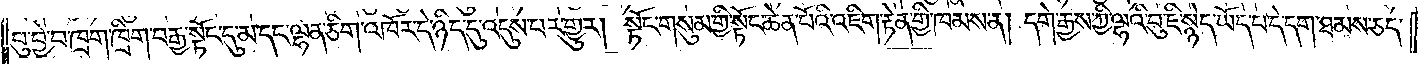བུ་བྱེ་བ་ཁྲག་ཁྲིག་བརྒྱ་སྟོང་དུ་མ་དང་ལྷན་ཅིག་འཁོར་དེ་ཉིད་དུ་འདུས་པར་གྱུར། སྟོང་གསུམ་གྱི་སྟོང་ཆེན་པོའི་འཇིག་རྟེན་གྱི་ཁམས་ན། དགེ་རྒྱས་ཀྱི་ལྷའི་བུ་ཇི་སྙེད་ཡོད་པ་དེ་དག་ཐམས་ཅད་
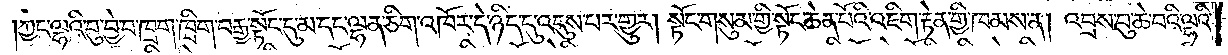ཀྱང་ལྷའི་བུ་བྱེ་བ་ཁྲག་ཁྲིག་བརྒྱ་སྟོང་དུ་མ་དང་ལྷན་ཅིག་འཁོར་དེ་ཉིད་དུ་འདུས་པར་གྱུར། སྟོང་གསུམ་གྱི་སྟོང་ཆེན་པོའི་འཇིག་རྟེན་གྱི་ཁམས་ན། འབྲས་བུ་ཆེ་བའི་ལྷའི་
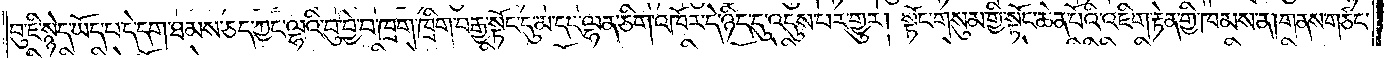བུ་ཇི་སྙེད་ཡོད་པ་དེ་དག་ཐམས་ཅད་ཀྱང་ལྷའི་བུ་བྱེ་བ་ཁྲག་ཁྲིག་བརྒྱ་སྟོང་དུ་མ་དང་ལྷན་ཅིག་འཁོར་དེ་ཉིད་དུ་འདུས་པར་གྱུར། སྟོང་གསུམ་གྱི་སྟོང་ཆེན་པོའི་འཇིག་རྟེན་གྱི་ཁམས་ན། གནས་གཙང་
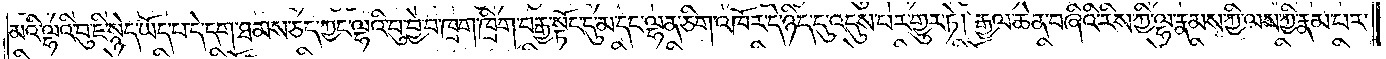མའི་ལྷའི་བུ་ཇི་སྙེད་ཡོད་པ་དེ་དག་ཐམས་ཅད་ཀྱང་ལྷའི་བུ་བྱེ་བ་ཁྲག་ཁྲིག་བརྒྱ་སྟོང་དུ་མ་དང་ལྷན་ཅིག་འཁོར་དེ་ཉིད་དུ་འདུས་པར་གྱུར་ཏེ། རྒྱལ་ཆེན་བཞིའི་རིས་ཀྱི་ལྷ་རྣམས་ཀྱི་ལས་ཀྱི་རྣམ་པར་
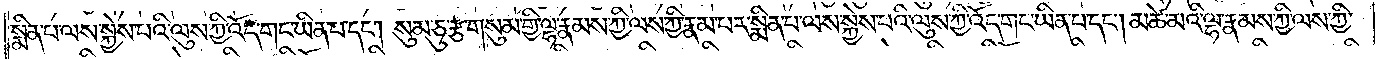སྨིན་པ་ལས་སྐྱེས་པའི་ལུས་ཀྱི་འོད་གང་ཡིན་པ་དང༌། སུམ་ཅུ་རྩ་གསུམ་གྱི་ལྷ་རྣམས་ཀྱི་ལས་ཀྱི་རྣམ་པར་སྨིན་པ་ལས་སྐྱེས་པའི་ལུས་ཀྱི་འོད་གང་ཡིན་པ་དང༌། མཚེ་མའི་ལྷ་རྣམས་ཀྱི་ལས་ཀྱི་
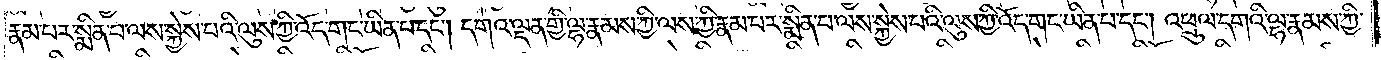རྣམ་པར་སྨིན་པ་ལས་སྐྱེས་པའི་ལུས་ཀྱི་འོད་གང་ཡིན་པ་དང༌། དགའ་ལྡན་གྱི་ལྷ་རྣམས་ཀྱི་ལས་ཀྱི་རྣམ་པར་སྨིན་པ་ལས་སྐྱེས་པའི་ལུས་ཀྱི་འོད་གང་ཡིན་པ་དང༌། འཕྲུལ་དགའི་ལྷ་རྣམས་ཀྱི་
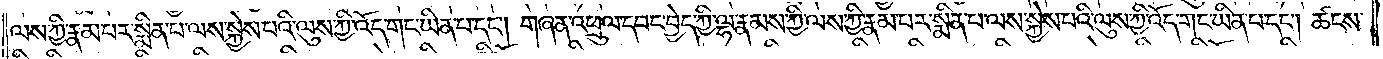ལས་ཀྱི་རྣམ་པར་སྨིན་པ་ལས་སྐྱེས་པའི་ལུས་ཀྱི་འོད་གང་ཡིན་པ་དང༌། གཞན་འཕྲུལ་དབང་བྱེད་ཀྱི་ལྷ་རྣམས་ཀྱི་ལས་ཀྱི་རྣམ་པར་སྨིན་པ་ལས་སྐྱེས་པའི་ལུས་ཀྱི་འོད་གང་ཡིན་པ་དང༌། ཚངས་
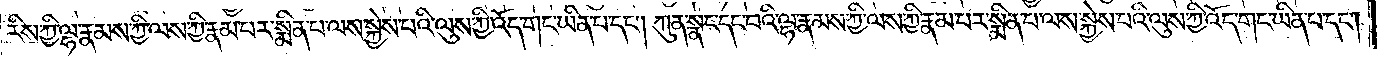རིས་ཀྱི་ལྷ་རྣམས་ཀྱི་ལས་ཀྱི་རྣམ་པར་སྨིན་པ་ལས་སྐྱེས་པའི་ལུས་ཀྱི་འོད་གང་ཡིན་པ་དང༌། ཀུན་སྣང་དང་བའི་ལྷ་རྣམས་ཀྱི་ལས་ཀྱི་རྣམ་པར་སྨིན་པ་ལས་སྐྱེས་པའི་ལུས་ཀྱི་འོད་གང་ཡིན་པ་དང༌།
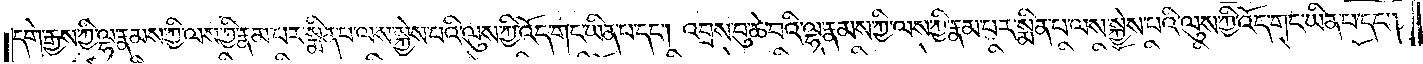དགེ་རྒྱས་ཀྱི་ལྷ་རྣམས་ཀྱི་ལས་ཀྱི་རྣམ་པར་སྨིན་པ་ལས་སྐྱེས་པའི་ལུས་ཀྱི་འོད་གང་ཡིན་པ་དང༌། འབྲས་བུ་ཆེ་བའི་ལྷ་རྣམས་ཀྱི་ལས་ཀྱི་རྣམ་པར་སྨིན་པ་ལས་སྐྱེས་པའི་ལུས་ཀྱི་འོད་གང་ཡིན་པ་དང༌།
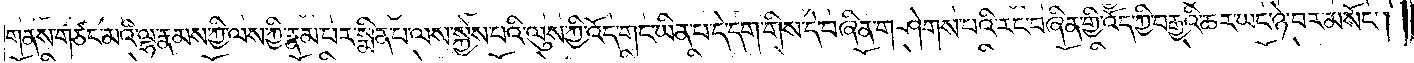གནས་གཙང་མའི་ལྷ་རྣམས་ཀྱི་ལས་ཀྱི་རྣམ་པར་སྨིན་པ་ལས་སྐྱེས་པའི་ལུས་ཀྱི་འོད་གང་ཡིན་པ་དེ་དག་གིས་དེ་བཞིན་གཤེགས་པའི་རང་བཞིན་གྱི་འོད་ཀྱི་བརྒྱའི་ཆར་ཡང་ཉེ་བར་མ་སོང༌།
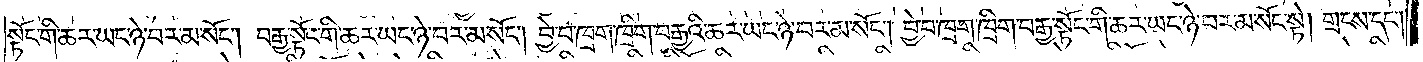སྟོང་གི་ཆར་ཡང་ཉེ་བར་མ་སོང༌། བརྒྱ་སྟོང་གི་ཆར་ཡང་ཉེ་བར་མ་སོང༌། བྱེ་བ་ཁྲག་ཁྲིག་བརྒྱའི་ཆར་ཡང་ཉེ་བར་མ་སོང༌། བྱེ་བ་ཁྲག་ཁྲིག་བརྒྱ་སྟོང་གི་ཆར་ཡང་ཉེ་བར་མ་སོང་སྟེ། གྲངས་དང༌།
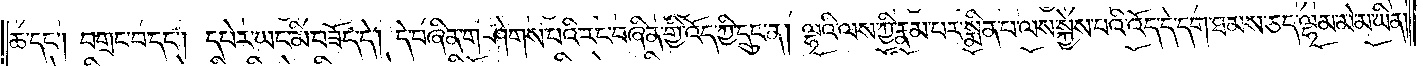ཆ་དང༌། བགྲང་བ་དང༌། དཔེར་ཡང་མི་བཟོད་དེ། དེ་བཞིན་གཤེགས་པའི་རང་བཞིན་གྱི་འོད་ཀྱི་དྲུང་ན། ལྷའི་ལས་ཀྱི་རྣམ་པར་སྨིན་པ་ལས་སྐྱེས་པའི་འོད་དེ་དག་ཐམས་ཅད་ལྷམ་མེ་མ་ཡིན།
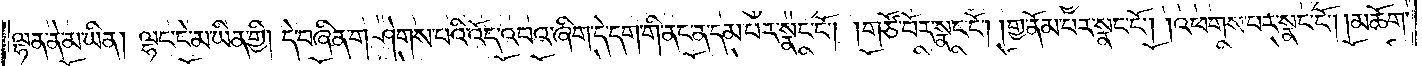ལྷན་ནེ་མ་ཡིན། ལྷང་ངེ་མ་ཡིན་གྱི། དེ་བཞིན་གཤེགས་པའི་འོད་འབའ་ཞིག་དེ་དག་གི་ནང་ན་དམ་པར་སྣང་ངོ༌། །གཙོ་བོར་སྣང་ངོ༌། །གྱ་ནོམ་པར་སྣང་ངོ༌། །འཕགས་པར་སྣང་ངོ༌། །མཆོག་
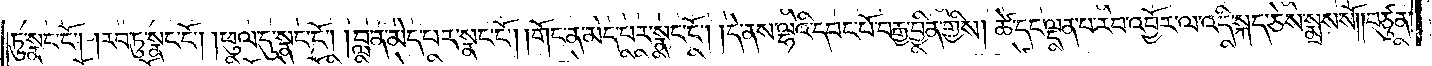ཏུ་སྣང་ངོ༌། །རབ་ཏུ་སྣང་ངོ༌། །ཕུལ་དུ་སྣང་ངོ༌། །བླ་ན་མེད་པར་སྣང་ངོ༌། །གོང་ན་མེད་པར་སྣང་ངོ༌། །དེ་ནས་ལྷའི་དབང་པོ་བརྒྱ་བྱིན་གྱིས། ཚེ་དང་ལྡན་པ་རབ་འབྱོར་ལ་འདི་སྐད་ཅེས་སྨྲས་སོ། །བཙུན་
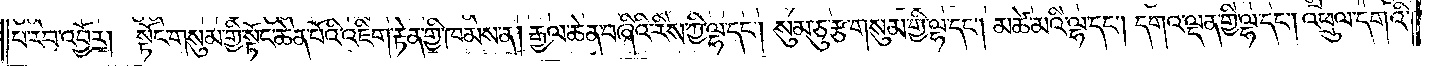པ་རབ་འབྱོར། སྟོང་གསུམ་གྱི་སྟོང་ཆེན་པོའི་འཇིག་རྟེན་གྱི་ཁམས་ན། རྒྱལ་ཆེན་བཞིའི་རིས་ཀྱི་ལྷ་དང༌། སུམ་ཅུ་རྩ་གསུམ་གྱི་ལྷ་དང༌། མཚེ་མའི་ལྷ་དང༌། དགའ་ལྡན་གྱི་ལྷ་དང༌། འཕྲུལ་དགའི་
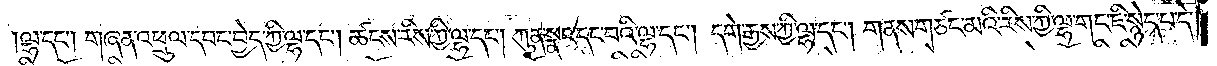ལྷ་དང༌། གཞན་འཕྲུལ་དབང་བྱེད་ཀྱི་ལྷ་དང༌། ཚངས་རིས་ཀྱི་ལྷ་དང༌། ཀུན་སྣང་དང་བའི་ལྷ་དང༌། དགེ་རྒྱས་ཀྱི་ལྷ་དང༌། གནས་གཙང་མའི་རིས་ཀྱི་ལྷ་གང་ཇི་སྙེད་པའི་དེ་
